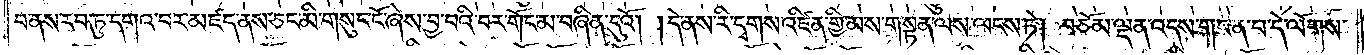བ་ནས་རབ་ཏུ་དགའ་བར་མཛད་ནས་ཅང་མི་གསུང་ངོ་ཞེས་བྱ་བའི་བར་གོང་མ་བཞིན་དུའོ། །དེ་ནས་རི་དྭགས་འཛིན་གྱི་མ་ས་ག་སྟན་ལས་ལངས་ཏེ། བཅོམ་ལྡན་འདས་གང་ན་བ་དེ་ལོགས་
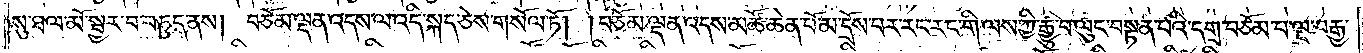སུ་ཐལ་མོ་སྦྱར་བ་བཏུད་ནས། བཅོམ་ལྡན་འདས་ལ་འདི་སྐད་ཅེས་གསོལ་ཏོ། །བཅོམ་ལྡན་འདས་མཚོ་ཆེན་པོ་མ་དྲོས་པར་རང་རང་གི་ལས་ཀྱི་རྒྱུ་བ་ལུང་བསྟན་པའི་དགྲ་བཅོམ་པ་ལྔ་བརྒྱ་
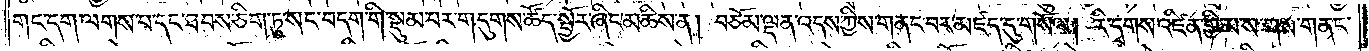གང་དག་ལགས་པ་དང་ཐབས་ཅིག་ཏུ་སང་བདག་གི་སྡུམ་པར་གདུགས་ཚོད་སྦྱོར་ཞིང་མཆིས་ན། བཅོམ་ལྡན་འདས་ཀྱིས་གནང་བར་མཛད་དུ་གསོལ། །རི་དྭགས་འཛིན་གྱི་མ་ས་གས་གནང་
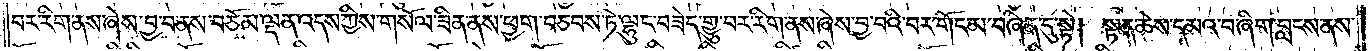བར་རིག་ནས་ཞེས་བྱ་བ་ནས་བཅོམ་ལྡན་འདས་ཀྱིས་གསོལ་ཟིན་ནས་ཕྱག་བཅབས་ཏེ་ལྷུང་བཟེད་གྱུ་བར་རིག་ནས་ཞེས་བྱ་བའི་བར་གོང་མ་བཞིན་དུ་སྟེ། སྟན་ཆེས་དམའ་བ་ཞིག་བླངས་ནས་
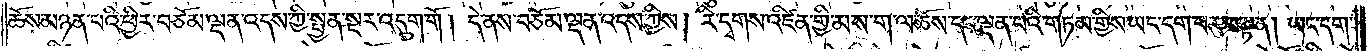ཆོས་མཉན་པའི་ཕྱིར་བཅོམ་ལྡན་འདས་ཀྱི་སྤྱན་སྔར་འདུག་གོ །དེ་ནས་བཅོམ་ལྡན་འདས་ཀྱིས། རི་དྭགས་འཛིན་གྱི་མ་ས་ག་ལ་ཆོས་དང་ལྡན་པའི་གཏམ་གྱིས་ཡང་དག་པར་བསྟན། ཡང་དག་
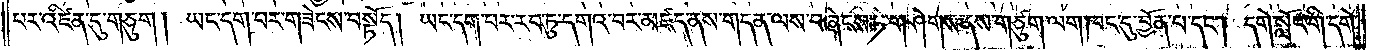པར་འཛིན་དུ་གཅུག །ཡང་དག་པར་གཟེངས་བསྟོད། ཡང་དག་པར་རབ་ཏུ་དགའ་བར་མཛད་ནས་གདན་ལས་བཞེངས་ཏེ་གཤེགས་ནས་གཙུག་ལག་ཁང་དུ་བྱོན་པ་དང༌། དགེ་སློང་གི་དགེ་
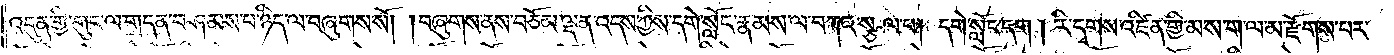འདུན་གྱི་གུང་ལ་གདན་བཤམས་པ་ཉིད་ལ་བཞུགས་སོ། །བཞུགས་ནས་བཅོམ་ལྡན་འདས་ཀྱིས་དགེ་སློང་རྣམས་ལ་བཀའ་སྩལ་པ། དགེ་སློང་དག །རི་དྭགས་འཛིན་གྱི་མ་ས་ག་ལ་མ་རྫོགས་པར་
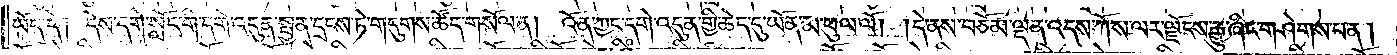ཡོད་དེ། དེས་དགེ་སློང་གི་དགེ་འདུན་སྤྱན་དྲངས་ཏེ་གདུགས་ཚོད་གསོལ་ན། འོན་ཀྱང་དགེ་འདུན་གྱི་ཆེད་དུ་ཡོན་མ་ཕུལ་ལོ། །དེ་ནས་བཅོམ་ལྡན་འདས་ཀོ་ས་ལར་ལྗོངས་རྒྱུ་ཞིང་གཤེགས་པ་ན།
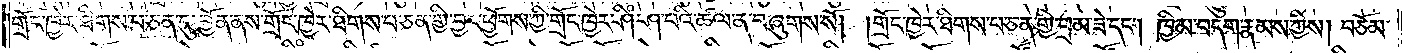གྲོང་ཁྱེར་ཐིགས་པ་ཅན་དུ་བྱོན་ནས་གྲོང་ཁྱེར་ཐིགས་པ་ཅན་གྱི་བྱང་ཕྱོགས་ཀྱི་གྲོང་ཁྱེར་ཤིཾ་ཤ་པའི་ཚལ་ན་བཞུགས་སོ། །གྲོང་ཁྱེར་ཐིགས་པ་ཅན་གྱི་བྲམ་ཟེ་དང༌། ཁྱིམ་བདག་རྣམས་ཀྱིས། བཅོམ་
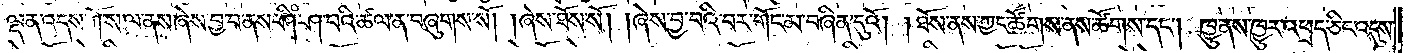ལྡན་འདས་ཀོ་ས་ལ་ནས་ཞེས་བྱ་བ་ནས་ཤིཾ་ཤ་པའི་ཚལ་ན་བཞུགས་སོ། །ཞེས་ཐོས་སོ། །ཞེས་བྱ་བའི་བར་གོང་མ་བཞིན་དུའོ། །ཐོས་ནས་ཀྱང་ཚོགས་ནས་ཚོགས་དང༌། ཁྱུ་ནས་ཁྱུར་འཕྲད་ཅིང་འདུས་
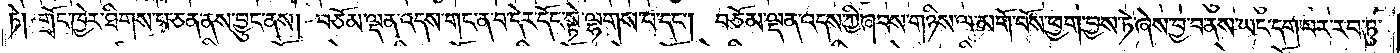ཏེ། གྲོང་ཁྱེར་ཐིགས་པ་ཅན་ནས་བྱུང་ནས། བཅོམ་ལྡན་འདས་གང་ན་བ་དེར་དོང་སྟེ་ལྷགས་པ་དང༌། བཅོམ་ལྡན་འདས་ཀྱི་ཞབས་གཉིས་ལ་མགོ་བོས་ཕྱག་བྱས་ཏེ་ཞེས་བྱ་བ་ནས་ཡང་དག་པར་རབ་ཏུ་
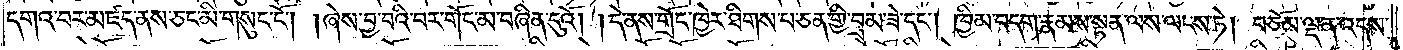དགའ་བར་མཛད་ནས་ཅང་མི་གསུང་ངོ༌། ཞེས་བྱ་བའི་བར་གོང་མ་བཞིན་དུའོ། །དེ་ནས་གྲོང་ཁྱེར་ཐིགས་པ་ཅན་གྱི་བྲམ་ཟེ་དང༌། ཁྱིམ་བདག་རྣམས་སྟན་ལས་ལངས་ཏེ། བཅོམ་ལྡན་འདས་
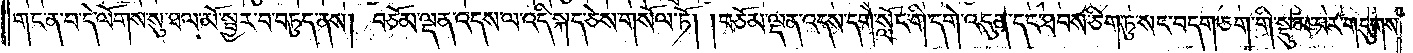གང་ན་བ་དེ་ལོགས་སུ་ཐལ་མོ་སྦྱར་བ་བཏུད་ནས། བཅོམ་ལྡན་འདས་ལ་འདི་སྐད་ཅེས་གསོལ་ཏོ། །བཅོམ་ལྡན་འདས་དགེ་སློང་གི་དགེ་འདུན་དང་ཐབས་ཅིག་ཏུ་སང་བདག་ཅག་གི་སྡུམ་པར་གདུགས་
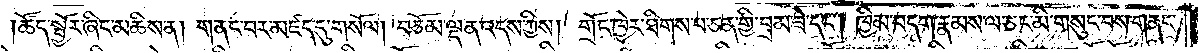ཚོད་སྦྱོར་ཞིང་མཆིས་ན། གནང་བར་མཛད་དུ་གསོལ། བཅོམ་ལྡན་འདས་ཀྱིས། གྲོང་ཁྱེར་ཐིགས་པ་ཅན་གྱི་བྲམ་ཟེ་དང༌། ཁྱིམ་བདག་རྣམས་ལ་ཅང་མི་གསུང་བས་གནང་
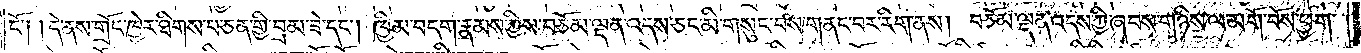ངོ༌། །དེ་ནས་གྲོང་ཁྱེར་ཐིགས་པ་ཅན་གྱི་བྲམ་ཟེ་དང༌། ཁྱིམ་བདག་རྣམས་ཀྱིས་བཅོམ་ལྡན་འདས་ཅང་མི་གསུང་བས་གནང་བར་རིག་ནས། བཅོམ་ལྡན་འདས་ཀྱི་ཞབས་གཉིས་ལ་མགོ་བོས་ཕྱག་
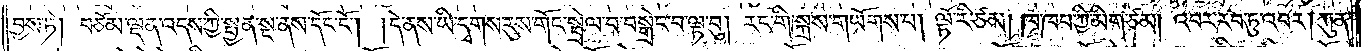བྱས་ཏེ། བཅོམ་ལྡན་འདས་ཀྱི་སྤྱན་སྔ་ནས་དོང་ངོ༌། །དེ་ནས་ཡི་དྭགས་རུས་གོང་སྦྲེལ་བ་བསྒྲེང་པ་ལྟ་བུ། རང་གི་སྐྲས་གཡོགས་པ། ལྟོ་རི་ཙམ། ཁ་ཁབ་ཀྱི་མིག་ཙམ། འབར་རབ་ཏུ་འབར། ཀུན་
